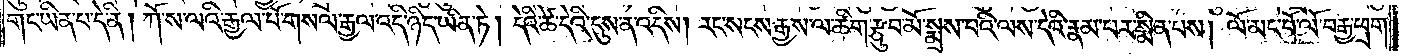གང་ཡིན་པ་དེ་ནི། ཀོ་ས་ལའི་རྒྱལ་པོ་གསལ་རྒྱལ་འདི་ཉིད་ཡིན་ཏེ། དེའི་ཚེ་དེའི་དུས་ན་འདིས། རང་སངས་རྒྱས་ལ་ཚིག་རྩུབ་མོ་སྨྲས་པའི་ལས་དེའི་རྣམ་པར་སྨིན་པས། ལོ་མང་པོ་ལོ་བརྒྱ་ཕྲག་
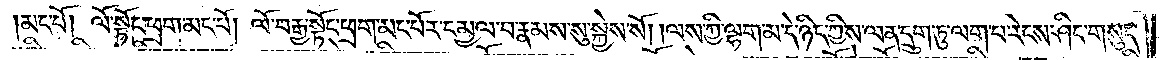མང་པོ། ལོ་སྟོང་ཕྲག་མང་པོ། ལོ་བརྒྱ་སྟོང་ཕྲག་མང་པོར་དམྱལ་བ་རྣམས་སུ་སྐྱེས་སོ། །ལས་ཀྱི་ལྷག་མ་དེ་ཉིད་ཀྱིས་ལན་དྲུག་ཏུ་ལག་པ་རེངས་ཤིང་གསུང་
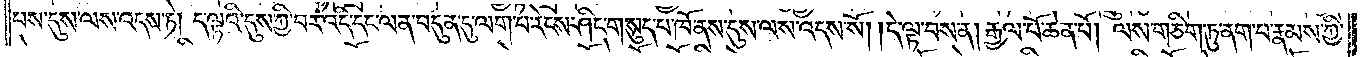པས་དུས་ལས་འདས་ཏེ། ད་ལྟའི་དུས་ཀྱི་བར་འདི་དང་ལན་བདུན་དུ་ལག་པ་རེངས་ཤིང་གསུད་པ་ཁོ་ནས་དུས་ལས་འདས་སོ། །དེ་ལྟ་བས་ན། རྒྱལ་པོ་ཆེན་པོ། ལས་གཅིག་ཏུ་ནག་པ་རྣམས་ཀྱི་
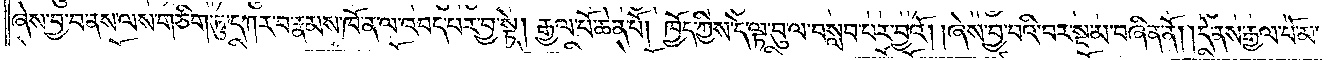ཞེས་བྱ་བ་ནས་ལས་གཅིག་ཏུ་དཀར་བ་རྣམས་ཁོ་ན་ལ་འབད་པར་བྱ་སྟེ། རྒྱལ་པོ་ཆེན་པོ། ཁྱོད་ཀྱིས་དེ་ལྟ་བུ་ལ་བསླབ་པར་བྱའོ། །ཞེས་བྱ་བའི་བར་སྔ་མ་བཞིན་ནོ། །དེ་ནས་རྒྱལ་པོ་མ་
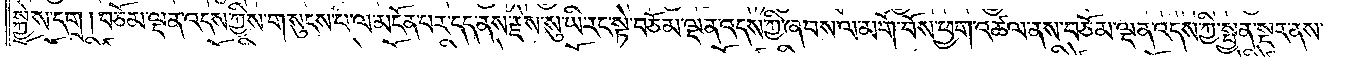སྐྱེས་དགྲ། བཅོམ་ལྡན་འདས་ཀྱིས་གསུངས་པ་ལ་མངོན་པར་དད་ནས་རྗེས་སུ་ཡི་རང་སྟེ་བཅོམ་ལྡན་འདས་ཀྱི་ཞབས་ལ་མགོ་བོས་ཕྱག་འཚལ་ནས་བཅོམ་ལྡན་འདས་ཀྱི་སྤྱན་སྔར་ནས་
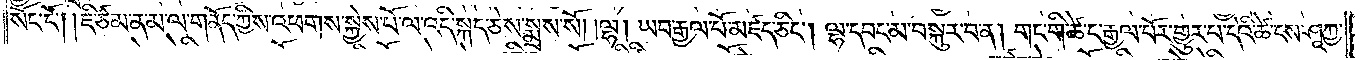སོང་ངོ༌། །ཇི་ཙམ་ན་མ་ལ་གནོད་ཀྱིས་འཕགས་སྐྱེས་པོ་ལ་འདི་སྐད་ཅེས་སྨྲས་སོ། །ལྷ། ཡབ་རྒྱལ་པོ་མཛད་ཅིང༌། ལྷ་དབང་མ་བསྐུར་པ་ན། གང་གི་ཚེ་ང་རྒྱལ་པོར་གྱུར་པ་དེའི་ཚེ་ངས་ཤཱཀྱ་
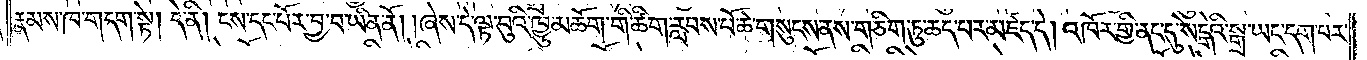རྣམས་ཁ་བདག་སྟེ། དེ་ནི། ངས་དང་པོར་བྱ་བ་ཡིན་ནོ། །ཞེས་དེ་ལྟ་བུའི་ཁྱུ་མཆོག་གི་ཚིག་རླབས་པོ་ཆེ་གསུངས་ནས་གཅིག་ཏུ་ཆད་པར་མཛད་དེ། འཁོར་གྱི་ནང་དུ་སེངྒེའི་སྒྲ་ཡང་དག་པར་
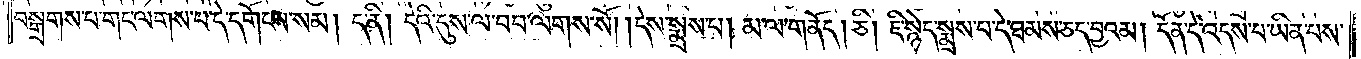བསྒྲགས་པ་གང་ལགས་པ་དེ་དགོངས་སམ། ད་ནི། དེའི་དུས་ལ་བབ་ལགས་སོ། །དེས་སྨྲས་པ། མ་ལ་གནོད། ཅི། ཇི་སྙེད་སྨྲས་པ་དེ་ཐམས་ཅད་བྱའམ། དོན་དེ་འདས་པ་ཡིན་པས་
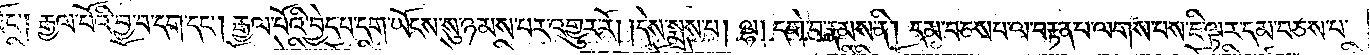ཐོང༌། རྒྱལ་པོའི་བྱ་བ་དག་དང༌། རྒྱལ་པོའི་བྱེད་པ་དག་ཡོངས་སུ་ཉམས་པར་འགྱུར་རོ། །དེས་སྨྲས་པ། ལྷ། དགེ་བ་རྣམས་ནི། དམ་བཅས་པ་ལ་བརྟན་པ་ལགས་པས་ཇི་ལྟར་དམ་བཅས་པ་
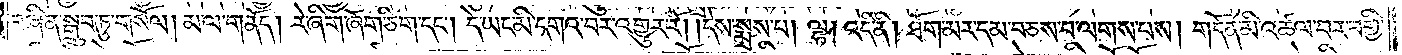བཞིན་སྒྲུབ་ཏུ་གསོལ། མ་ལ་གནོད། རེ་ཞིག་ཞོག་ཅིག་དང༌། དེ་ཡང་མི་དགའ་བར་འགྱུར་རོ། །དེས་སྨྲས་པ། ལྷ། འདི་ནི། ཐོག་མར་དམ་བཅས་པ་ལགས་པས། གདོན་མི་འཚལ་བར་བགྱི་
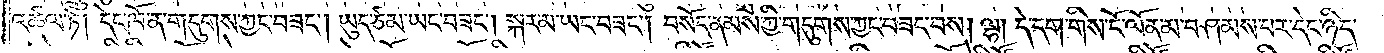འཚལ་ཏེ། དེང་ཁོ་ན་གདུགས་ཀྱང་བཟང༌། ཡུད་ཙམ་ཡང་བཟང༌། སྐར་མ་ཡང་བཟང༌། བསོད་ནམས་ཀྱི་གདུགས་ཀྱང་བཟང་བས། ལྷ། དེ་དག་གིས་ངོ་ལོན་མ་བཤམས་པར་དེང་ཉིད་
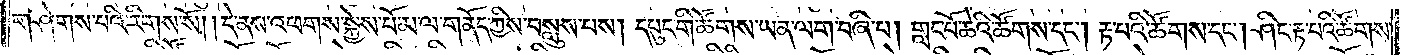གཤེགས་པའི་རིགས་སོ། །དེ་ནས་འཕགས་སྐྱེས་པོ་མ་ལ་གནོད་ཀྱིས་བསླུས་པས། དཔུང་གི་ཚོགས་ཡན་ལག་བཞི་པ། གླང་པོ་ཆེའི་ཚོགས་དང༌། རྟ་པའི་ཚོགས་དང༌། ཤིང་རྟ་པའི་ཚོགས་
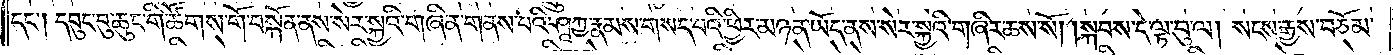དང༌། དབུང་བུ་ཆུང་གི་ཚོགས་གོ་བསྐོན་ནས་སེར་སྐྱའི་གཞི་ན་གནས་པའི་ཤཱཀྱ་རྣམས་གསད་པའི་ཕྱིར་མཉན་ཡོད་ནས་སེར་སྐྱའི་གཞིར་ཆས་སོ། །སྐབས་དེ་ལྟ་བུ་ལ། སངས་རྒྱས་བཅོམ་
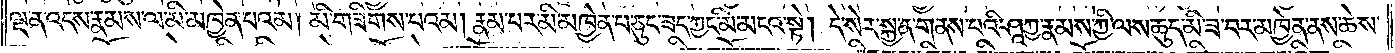ལྡན་འདས་རྣམས་ལ་མི་མཁྱེན་པའམ། མི་གཟིགས་པའམ། རྣམ་པར་མི་མཁྱེན་པ་ཅུང་ཟད་ཀྱང་མི་མངའ་སྟེ། དེ་སེར་སྐྱ་ན་གནས་པའི་ཤཱཀྱ་རྣམས་ཀྱི་ལས་ཆུད་མི་ཟ་བར་མཁྱེན་ནས་ཆེས་
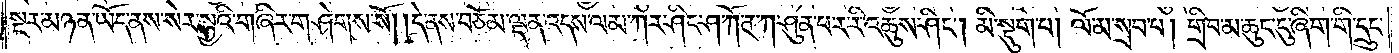སྔར་མཉན་ཡོད་ནས་སེར་སྐྱའི་གཞིར་གཤེགས་སོ། །དེ་ནས་བཅོམ་ལྡན་འདས་ལམ་ཀར་ཤིང་ཤ་ཀོ་ཊ་ཀ་ཤུན་པར་རི་འཆུས་ཤིང༌། མི་སྡུག་པ། ལོ་མ་སྲབ་པ། གྲིབ་མ་ཆུང་ངུ་ཞིག་གི་དྲུང་
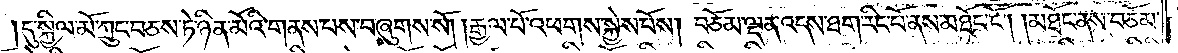དུ་སྐྱིལ་མོ་ཀྲུང་བཅས་ཏེ་ཉིན་མོའི་གནས་པས་བཞུགས་སོ། །རྒྱལ་པོ་འཕགས་སྐྱེས་པོས། བཅོམ་ལྡན་འདས་ཐག་རིང་པོ་ནས་མཐོང་ངོ༌། །མཐོང་ནས་བཅོམ་
